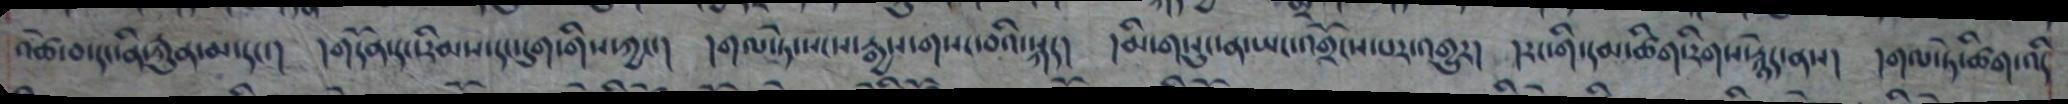འཚེ་བ་དང་ནི་རྐུན་མ་དང་། །གདོན་དང་རིམས་དང་དུག་གིས་ཀྱང་། །གལ་ཏེ་སངས་རྒྱས་གསང་བའི་སྐད། །མི་གསུང་ན་ཡང་འགྲོངས་པར་འགྱུར། །རང་གི་དམ་ཚིག་རིགས་རྙེད་ནས། །གལ་ཏེ་ཚིག་འདི
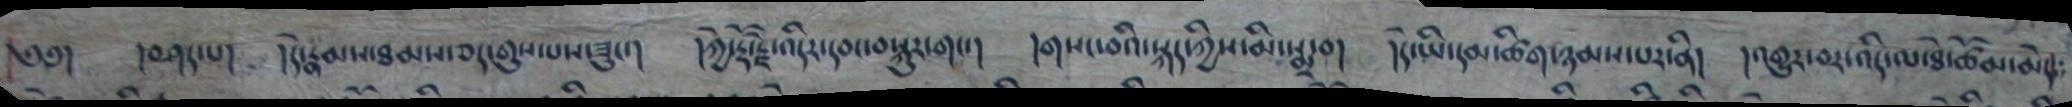༄༅། །བཤད་པ། །དེ་རྣམས་ཐམས་ཅད་གུས་པས་ཟུང་། །ཀྱེ་རྡོ་རྗེ་འདིར་དབང་བསྐུར་གང་། །གསང་བའི་སྐད་ཀྱིས་མི་སྨྲ་བ། །དེ་ཡི་དམ་ཚིག་ཉམས་པར་ནི། །འགྱུར་བར་འདི་ལ་ཐེ་ཚོམ་མེད་
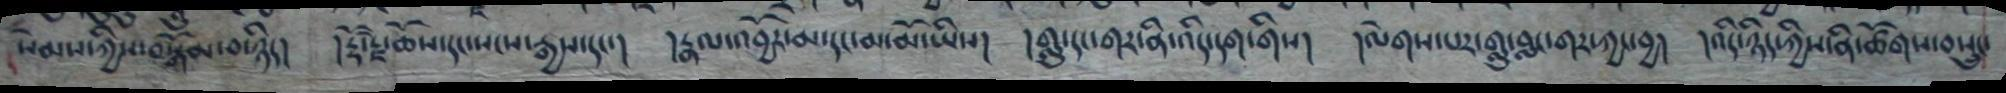སེམས་ཀྱིས་བསྒོམ་བ་ཉིད། །རྡོ་རྗེ་ཆོས་དང་སངས་རྒྱས་དང་། །རྣལ་འབྱོར་མ་དང་མ་མོ་ཡིས། །གླུ་དང་གར་ནི་འདི་དག་གིས། །ལེགས་པར་གླུ་བླང་གར་ཀྱང་བྱ། །འདི་ཉིད་ཀྱིས་ནི་ཚོགས་བསྲུང་
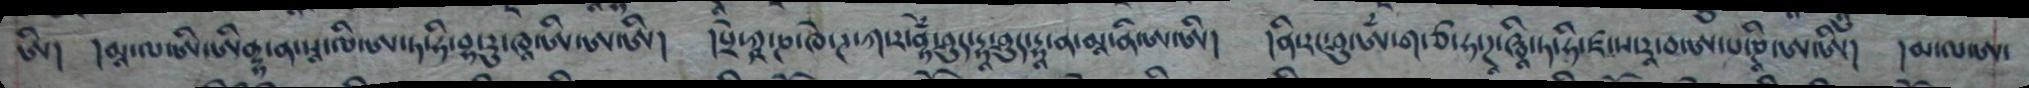ཨི། །མཱ་ལ་ཨི་ཨིནྡྷ་ན་སཱ་ལི་ཨ་ཏ་དྷི་བྷ་རུ་ཁཱ་ཨི་ཨ་ཨི། །པྲེ་ཀྵ་ཎ་ཁེ་ཊ་ཀ་ར་བྷེཾ་ཤུད་དྷཱ་ན་མཱ་ནི་ཨ་ཨི། །ནི་རང་ཤུ་ཨཾ་ཙ་ཧ་ཌཱ་ཝཱི་ཏ་ཧི་ཛ་ས་རཱ་བ་ཨ་པ་ཎི་ཨ་ཨི། །མ་ལ་ཨ་
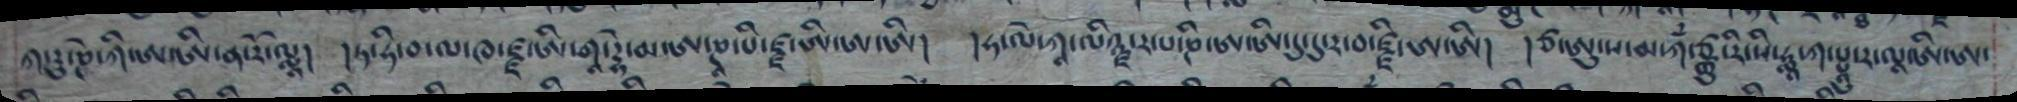ཀ་རུ་ཎེ་ཀི་ཨ་ཨི་ན་རོ་ལྨཱ། །ཏ་ཧི་བ་ལ་ཁ་ཛྫ་ཨི་གཱ་དྷེ་མ་ཨ་ཎཱ་པི་ཛྫ་ཨི་ཨ་ཨི། །ཧ་ལེ་ཀཱ་ལིཉྫ་ར་པ་ཎི་ཨ་ཨི་དུ་དུ་ར་བ་ཛྫི་ཨ་ཨི། །ཙ་ཨུ་ས་མ་ཀཾ་ཙྪུ་རི་སི་ཧླཱ་ཀ་པྤཱུ་ར་ལཱ་ཨི་ཨ་
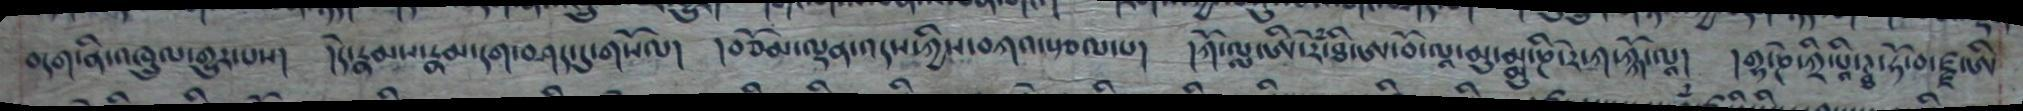བདག་ནི་འཁྲུལ་གྱུར་པས། །དེ་རྣམས་རྣམ་དག་བཤད་དུ་གསོལ། །བཅོམ་ལྡན་འདས་ཀྱིས་བཀའ་སྩལ་པ། །ཀོ་ལླ་ཨི་རེཾ་ཐི་ཨ་བོ་ལཱ་མུ་མྨུ་ཎི་རེ་ཀ་ཀྐོ་ལཱ། །གྷ་ཎེ་ཀྲི་པཱི་ཊྠ་ཧོ་བ་ཛྫ་ཨི
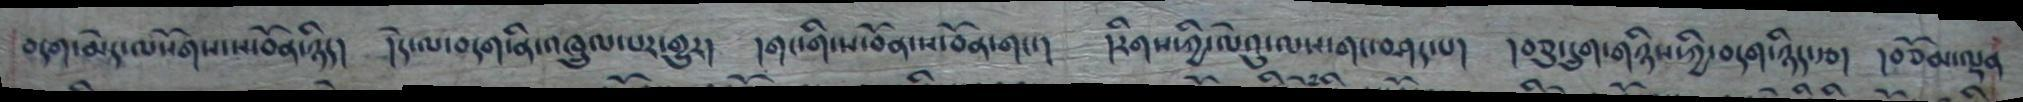བདག་མེད་ལསོགས་ས་བོན་ཉིད། །དེ་ལ་བདག་ནི་འཁྲུལ་པར་གྱུར། །གང་གི་ས་བོན་ས་བོན་གང་། །རིགས་ཀྱི་ལེའུ་ལས་གང་བཤད་པ། །བཅུ་དྲུག་གཉིས་ཀྱི་བདག་ཉིད་རྩ། །བཅོམ་ལྡན
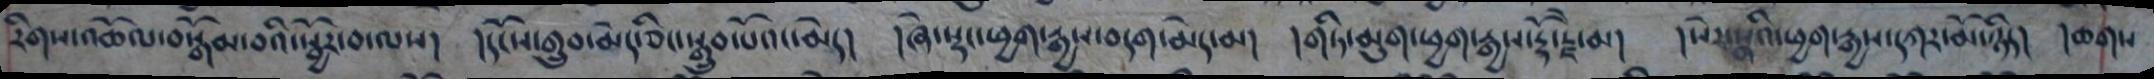རིགས་འཆོལ་བསྒོམ་བའི་སྦྱོར་བ་ལས། །དངོས་གྲུབ་མེད་ཅིང་སྒྲུབ་པོའང་མེད། །ཞེ་སྡང་ཕྱག་རྒྱས་བདག་མེད་མ། །གཏི་མུག་ཕྱག་རྒཡྶ་རྡོ་རྗེ་མ། །སེར་སྣའི་ཕྱག་རྒྱས་དཀར་མོ་ཉིད། །ཆགས
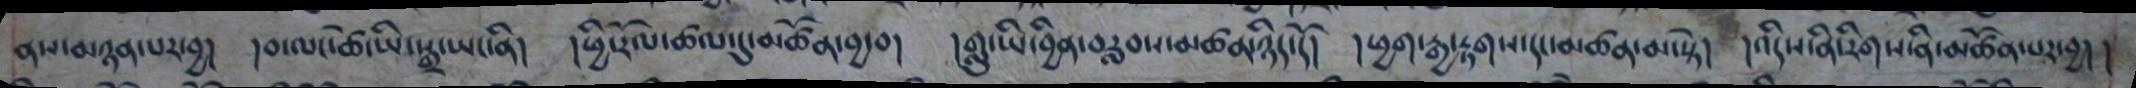ནས་མཉན་པར་བྱ། །བ་ལང་ཚེ་ཡི་སྒྲ་ཡང་ནི། །ཕྱི་རོལ་ཚལ་དུ་མཚོན་བྱ་བ། །གླུ་ཡི་བྱིན་བརླབས་མཚན་ཉིད་དོ། །ཕྱག་རྒྱ་རྟགས་དང་མཚན་མ་སྟེ། །འདིས་ནི་རིགས་ནི་མཚོན་པར་བྱ། །
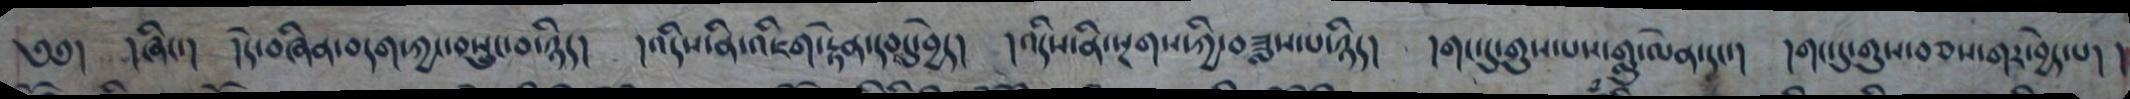༄༅།    །ཞིང་།    །དེ་བཞིན་བདག་ཀྱང་བསུང་བ་ཉིད།   །འདིས་ནི་འཇིག་རྟེན་དབངུ་བྱེད།     ། འདིས་ནི་སྔགས་ཀྱི་བཟླས་པ་ཉིད།    །གང་དུ་གུས་པས་གླ་ལེན་དང་།      །གང་དུ་གུས་བཅས་གར་བྱེད་པ།  །
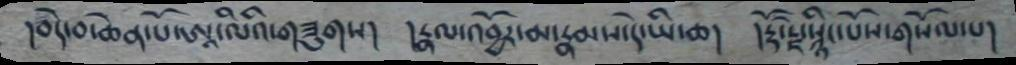།བདེ་བ་ཆེན་པོ་ཨཱ་ལིའི་གཟུགས། །རྣལ་འབྱོར་མ་རྣམས་དེ་ཡི་ཆ། །རྡོ་རྗེ་སྙིང་པོས་གསོལ་པ།
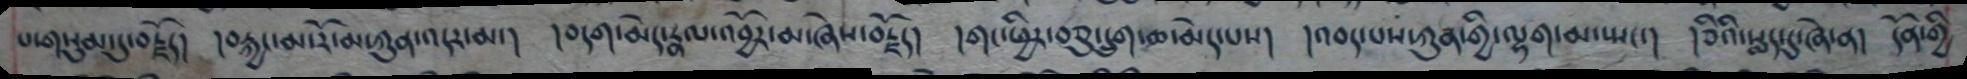པ་གསུམ་དུ་བརྗོད། །བརྐྱང་མ་རོ་མ་ཀུན་འདར་མ་། །བདག་མེད་རྣལ་འབྱོར་མ་ཞེས་བརྗོད། །གང་ཕྱིར་བཅུ་དྲུག་ཆ་མེད་པས། །འབད་པས་ཀུན་གྱི་ལྷག་མ་སྤང་། །ཅིའི་སླད་དུ་ཞེ་ན། དོན་གྱི
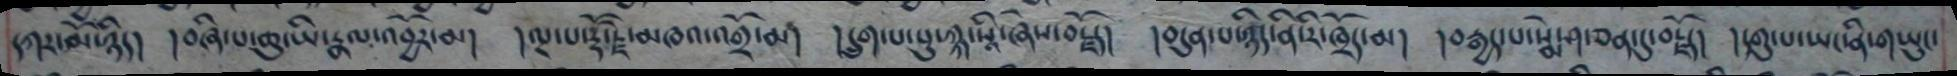དཀར་མོ་ཉིད། །བཞི་པ་ཆུ་ཡི་རྣལ་འབྱོར་མ། །ལྔ་པ་རྡོ་རྗེ་མཁའ་འགྲོ་མ། །དྲུག་པ་པུ་ཀྐ་སཱི་ཞེས་བརྗོད། །བདུན་པ་ཉིད་ནི་རི་ཁྲོད་མ། །བརྒྱད་པ་སྨེ་ཤ་ཅན་དུ་བརྗོད། །དགུ་པ་ཡང་ནི་གཡུང་
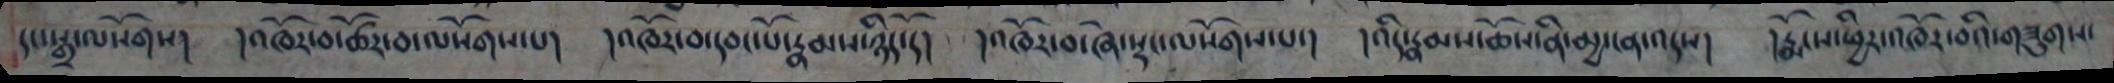དང་སྒྲ་ལསོགས། །འཁོར་བ་ཚོར་བ་ལསོགས་པ། །འཁོར་བ་དབང་པོ་རྣམས་ཉིད་དོ། །འཁོར་བ་ཞེ་སྡང་ལསོགས་པ་། །འདི་རྣམས་ཆོས་ནི་མྱ་ངན་འདས། །རྨོངས་ཕྱིར་འཁོར་བའི་གཟུགས་
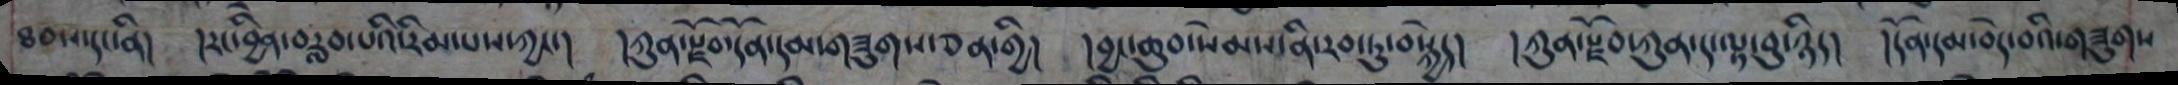ཐབས་དང་ནི། །རང་བྱིན་བརླབ་པའི་རིམ་པས་ཀྱང་། །ཀུན་སཛོབ་དོན་དམ་གཟུགས་ཅན་གྱི། །བྱང་ཆུབ་སེམས་ནི་རབ་ཏུ་བསྐྱེད། །ཀུན་སཛོབ་ཀུན་དང་ལྟ་བུ་ཉིད། །དོན་དམ་བདེ་བའི་གཟུགས
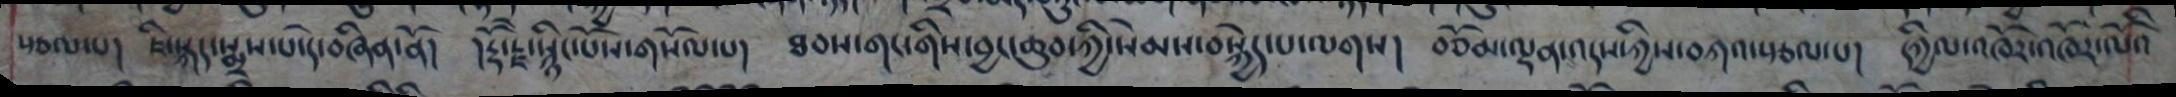སྩལ་པ། ཇི་སྐད་སྨྲས་པ་དེ་བཞིན་ནོ། །རྡོ་རྗེ་སྙིང་པོས་གསོལ་པ། ཐབས་གང་གིས་བྱང་ཆུབ་ཀྱི་སེམས་བསྐྱེད་པ་ལགས། བཅོམ་ལྡན་འདས་ཀྱིས་བཀའ་སྩལ་པ། དཀྱིལ་འཁོར་འཁོར་ལོའི
